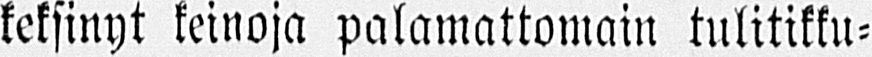keksinyt keinoja palamattomain tulitikku-
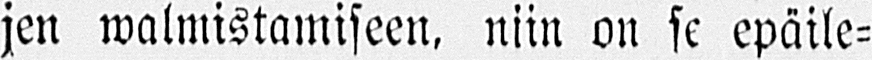jen walmistamiseen, niin on se epäile-
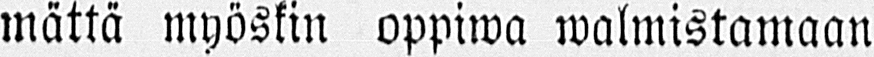mättä myöskin oppiwa walmistamaan
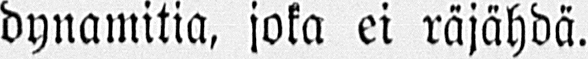dynamitia, joka ei räjähdä.
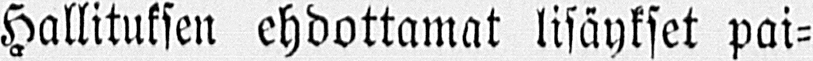Hallituksen ehdottamat lisäykset pai-
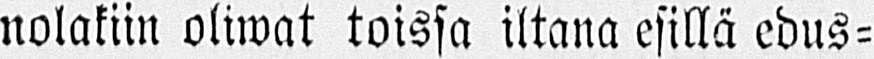nolakiin oliwat toissa iltana esillä edus-
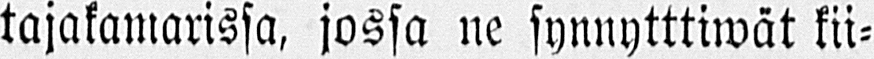tajakamarissa, jossa ne synnytttiwät kii-
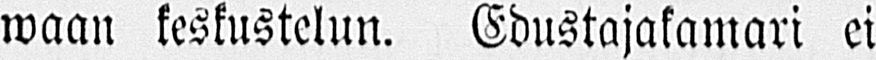waan keskustelun. Edustajakamari ei
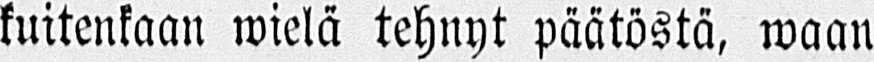kuitenkaan wielä tehnyt päätöstä, waan
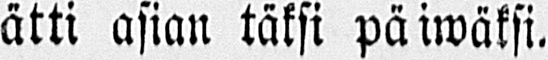ätti asian täksi päiwäksi.
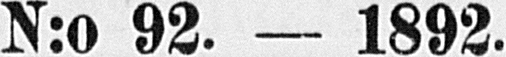No 92. — 1892.
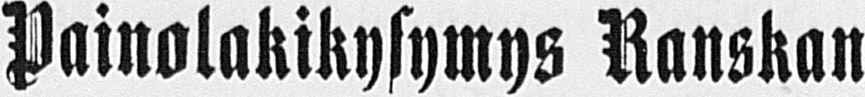Painolakikysymys Ranskan
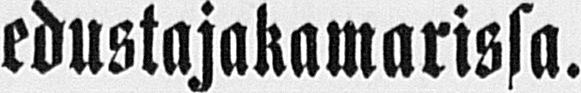edustajakamarissa.
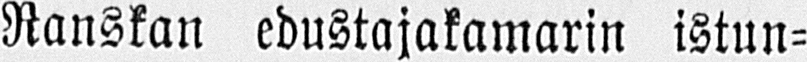Ranskan edustajakamarin istun-
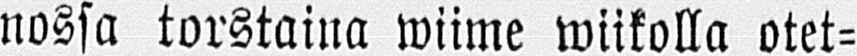nossa torstaina wiime wiikolla otet-
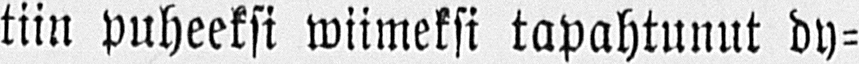tiin puheeksi wiimeksi tapahtunut dy-
